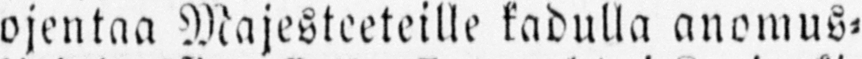ojentaa Majesteeteille kadulla anomus-
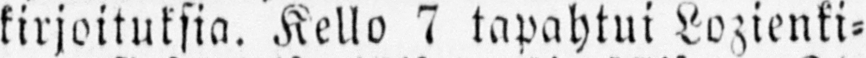kirjoituksia. Kello 7 tapahtui Lozienki-
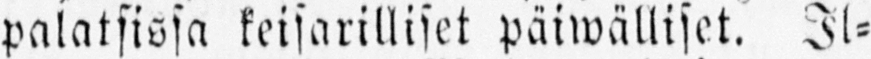palatsissa keisarilliset päiwälliset. Il-
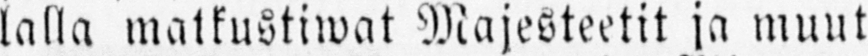lalla matkustiwat Majesteetit ja muut
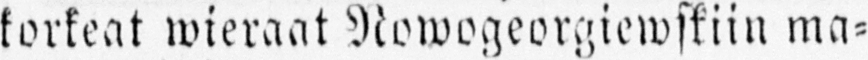korkeat wieraat Nowogeorgiewskiin ma-
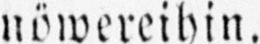nöwereihin.
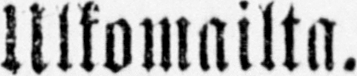Ulkomailta.
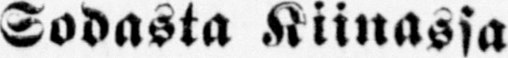Sodasta Kiinassa
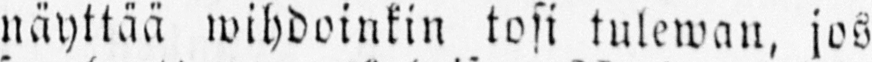näyttää wihdoinkin tosi tulewan, jos
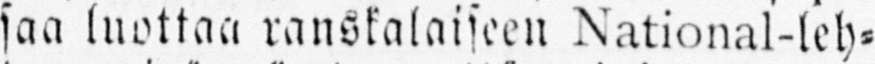saa luottaa ranskalaiseen National-leh-
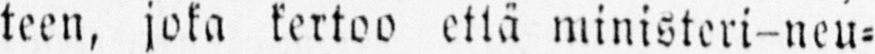teen, joka kertoo että ministeri-neu-
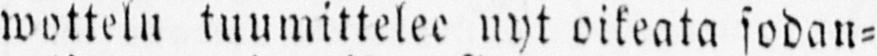wottelu tuumittelee nyt oikeata sodan-
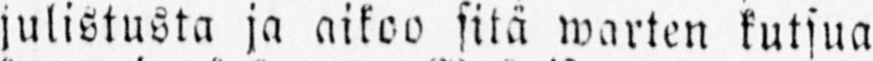julistusta ja aikoo sitä warten kutsua
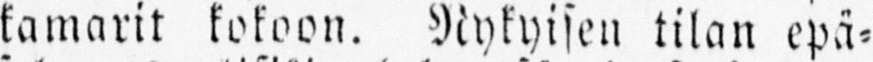kamarit kokoon. Nykyisen tilan epä-
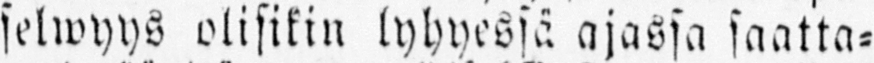selwyys olisikin lyhyessä ajassa saatta-
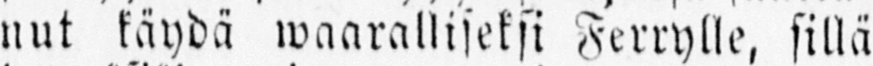nut käydä waaralliseksi Ferrylle, sillä
